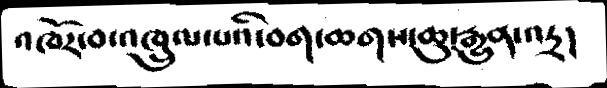འཁོར་བ་འཁྲུལ་པའི་བག་ཆགས་ཆུ་རྒྱུན་འདྲ།
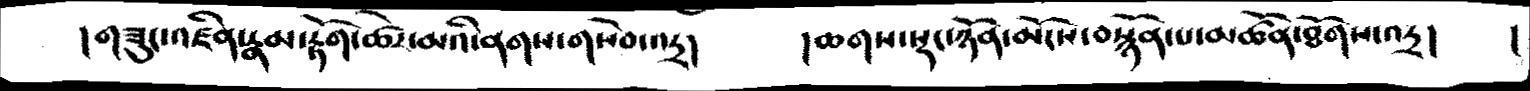། གཟུང་འཛིན་རྣམ་རྟོག་ཚེར་མའི་ནགས་གསེབ་འདྲ།     །ཆགས་སྡང་ཉོན་མོངས་བསྙོན་པ་མཚོན་ཐོགས་འདྲ།   །
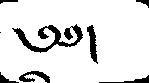༄༅།
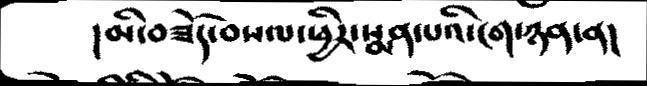། མི་བཟོད་བསལ་ཕྱིར་སྨན་པའི་ངག་ཉན་ན།
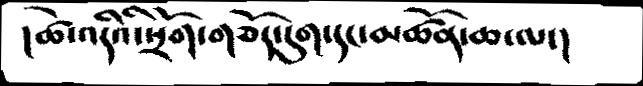། ཚེ་འདིའི་སྲོག་གཅོད་དུག་དང་མཚོན་ཆ་ལ་།
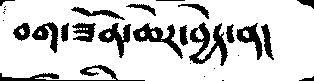བག་ཟོན་ཆེར་བྱེད་ན།
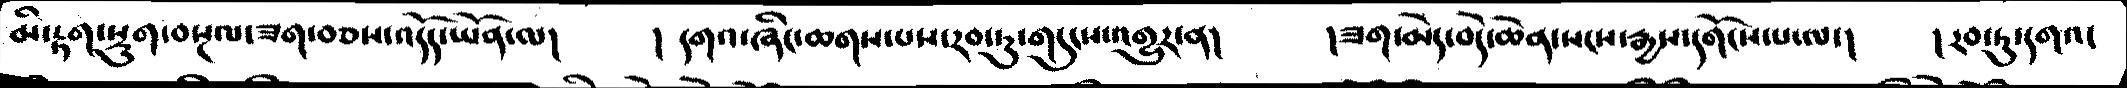མི་རྟག་སྡུག་བསྔལ་ཟག་བཅས་འདོད་ཡོན་ལ།   །དགའ་ཞིང་ཆགས་པས་རབ་ཏུ་གདུངས་འགྱུར་ན།    །ཟག་མེད་བདེ་ཆེན་སངས་རྒྱས་དགོངས་པ་ལ།   །རབ་ཏུ་དགའ་
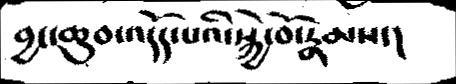བྱང་ཆུབ་འདོད་པའི་སྐྱེ་བོ་རྣམས་།
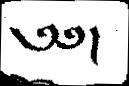༄༅།
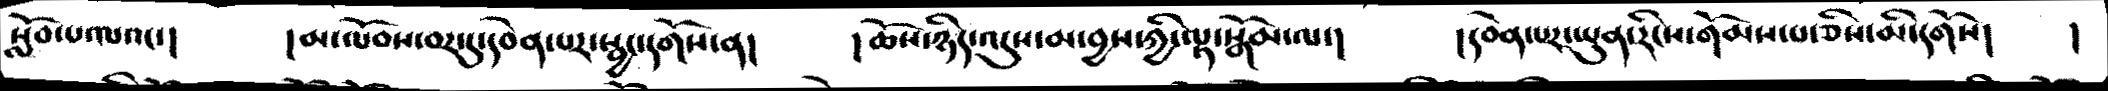སློབ་པ་ལའང་།   །མ་ལོབས་བར་དུ་དབེན་པར་སྦྱང་དགོས་ན།    །ཆོས་ཉིད་འདུས་མ་བྱས་ཀྱི་ལྟ་སྒོམ་ལ་།   །དབེན་པར་ཡུན་རིངས་གོམས་པ་ཅིས་མི་དགོས།   །
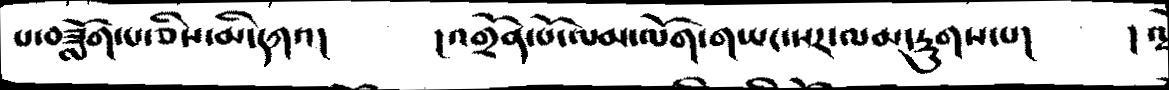པ་བཟློག་པ་ཅིས་མི་དཀའ།       །འགྲོན་པོ་ལམ་ལོག་གཡང་སར་ལམ་དྱུགས་པ།     །ལྷོ
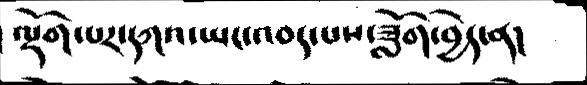ལྡོག་པར་དཀའ་ཡང་འབད་པས་ཟློག་བྱེད་ན།
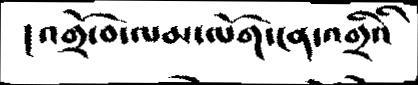། འགྲོ་བ་ལམ་ལོག་ངན་འགྲིའི
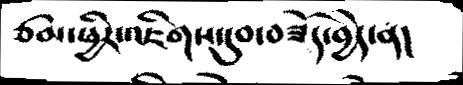ཙམ་ཕྱིར་འཇིགས་དུབ་བཟོད་བྱེད་ན།
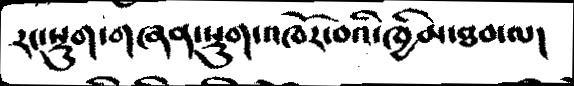རང་སྡུག་གཞན་སྡུག་འཁོར་བའི་ཁྱིམ་ཐབ་ལ།
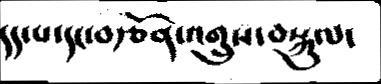དད་པ་དང་བརྩོན་འགྲུས་བསྐུལ་
